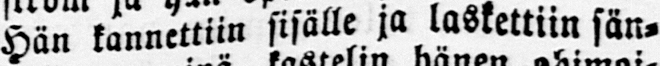Hän kannettiin sisälle ja laskettiin sän-
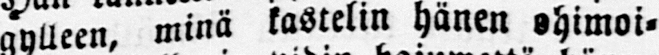gylleen minä kastelin hänen ohimoi-
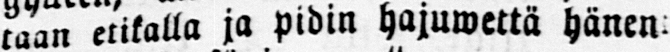taan etikalla ja pidin hajuwettä hänen:
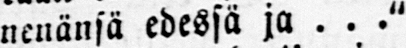nenänsä edessä ja . . ."
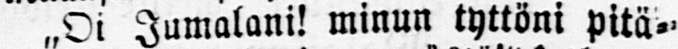˶ Oi Jumalani! minun tyttöni pitä-
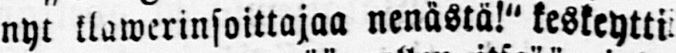nyt klawerinsoittajaa nenästä!" keskeytti
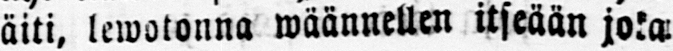äiti, lewotonna wäännellen itseään joka
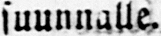suunnalla
